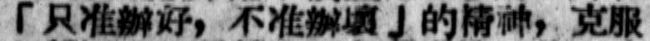「只准辦好，不準辦壞」的精神，克服
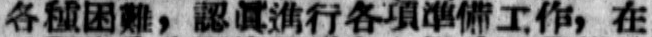各種困難，認眞進行各項準備工作，在
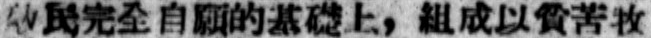牧民完全自願的基礎上，組成以貧苦牧
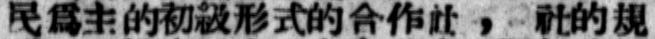民爲主的初級形式的合作社 ， 社的規
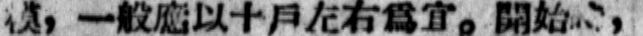模，一般應以十戶左右爲宜。開始時，
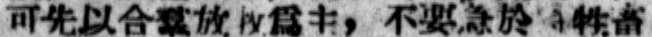可先以合羣放牧爲主，不要急於將牲畜
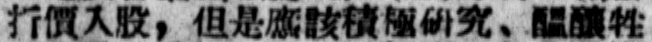折價入股，但是應該積極研究、醞釀牲
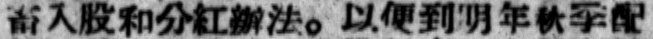畜入股和分紅辦法。以便到明年秋季配
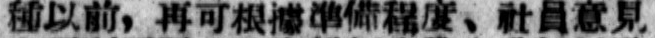種以前，再可根據準備程度、社員意見
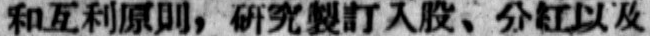和互利原則，研究制訂入股、分紅以及
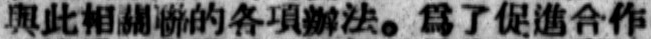於此相關聯的各項辦法。爲了促進合作
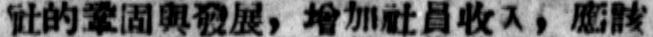社的鞏固與發展，增加社員收入，應該
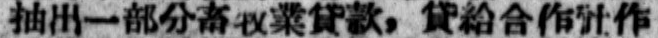抽出一部分畜牧業貸款，貸給合作社作
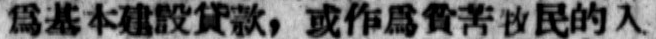爲基本建設貸款，或作爲貧苦牧民的入
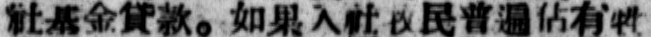社基金貸款。如果入社牧民普遍佔有牲
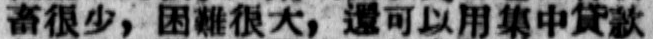畜很少，困難很大，還可以用集中貸款
